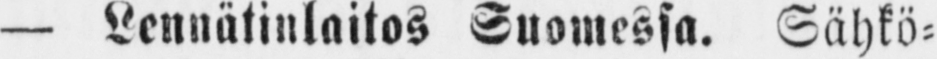— Lennätinlaitos Suomessa. Sähkö-
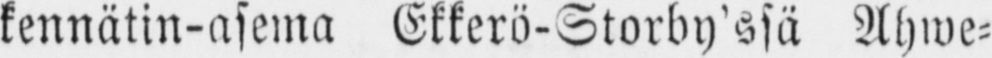kennätin-asema Ekkerö-Storby'ssä Ahwe-
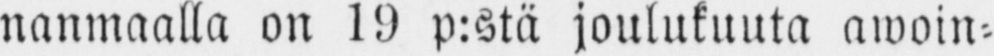nanmaalla on 19 p:stä joulukuuta awoin-
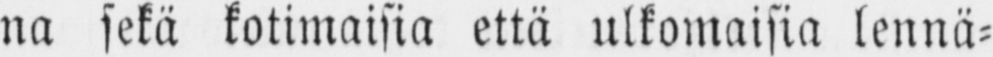na sekä kotimaisia että ulkomaisia lennä-
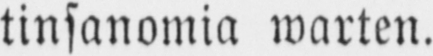tinsanomia warten.
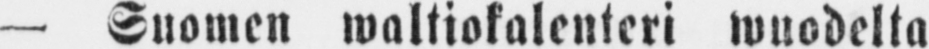— Suomen waltiokalenteri wuodelta
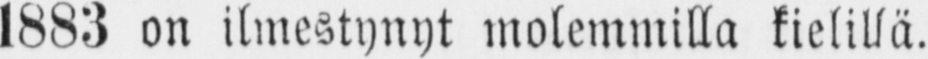1883 on ilmestynyt molemmilla kielillä.
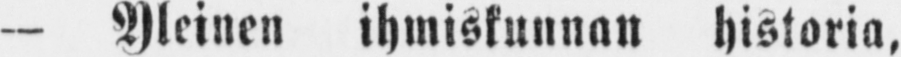— Yleinen ihmiskunnan historia.
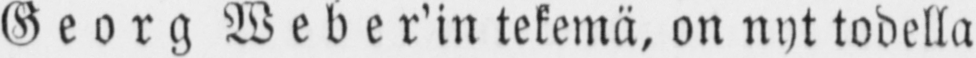Georg Weber'in tekemä, on nyt todella
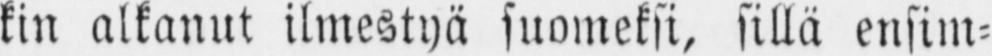kin alkanut ilmestyä suomeksi, sillä ensim-
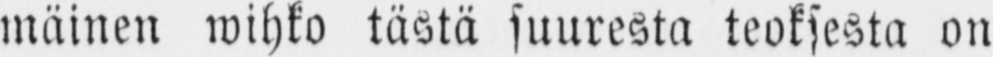mäinen wihko tästä suuresta teoksesta on
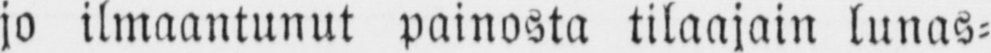jo ilmaantunut painosta tilaajain lunas-
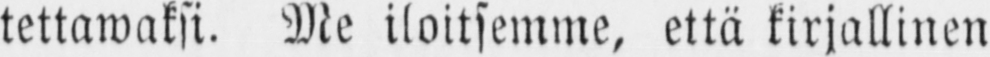tettawaksi. Me iloitsemme, että kirjallinen
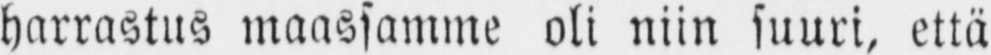harrastus maassamme oli niin suuri, että
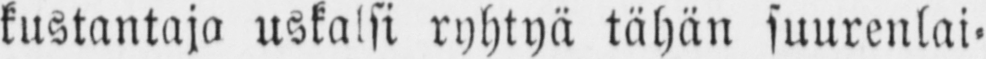kustantaja uskalsi ryhtyä tähän suurenlai-
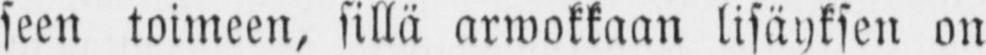seen toimeen, sillä arwokkaan lisäyksen on
